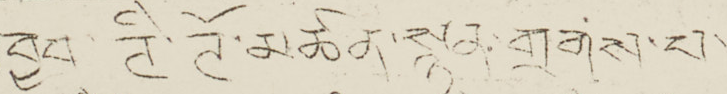ཁྱབ་ཊི་ཊོ་མཚན་སྙན་གྲགས་པ་
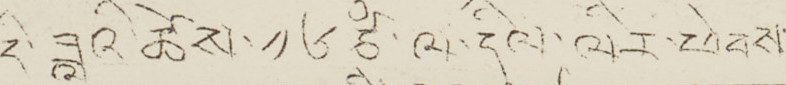འདི་ཟླའི་ཚེས་༡༦ ཙཾ་ལ་དིལ་ལིར་ཕེབས་
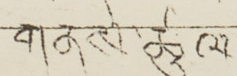རྒྱུའི་གནས་ཚུལ།
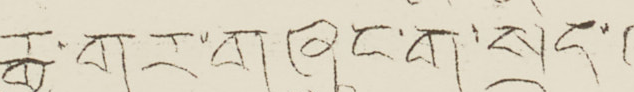རྒྱ་གར་གཞུང་གི་སྲིད་འཛིན་
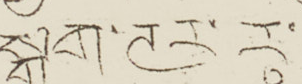སྒྲག་ཊར་ར
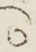ཾ
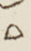ཾ
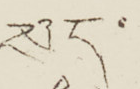སད་
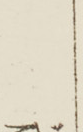ཾ
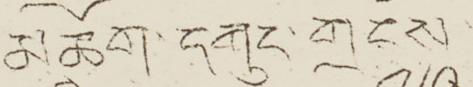མཆོག་དགུང་གྲངས་
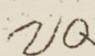༧༠
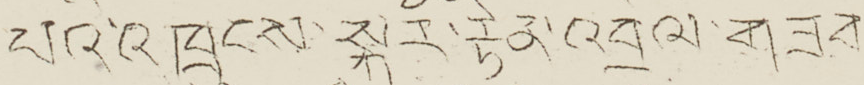པའི་འཁྲུངས་སྐར་རྟེན་འབྲེལ་གཟབ
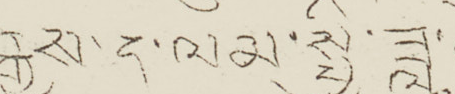རྒྱས་ད་ལམ་སྤྱི་ཟླ་
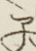༡༢
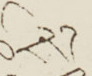ཚེས་
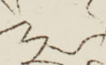༣
